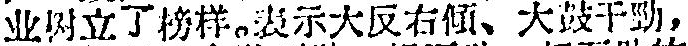业树立了榜样。表示大反右傾、大鼓干勁，
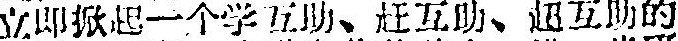立即掀起一个学互助、赶互助、超互助的
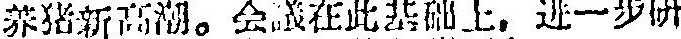养猪新高潮。会議在此基础上，进一步研
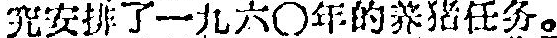究安排了一九六〇年的养猪任务。
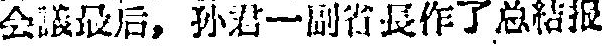会議最后，孙君一副省長作了总結报
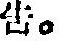告。
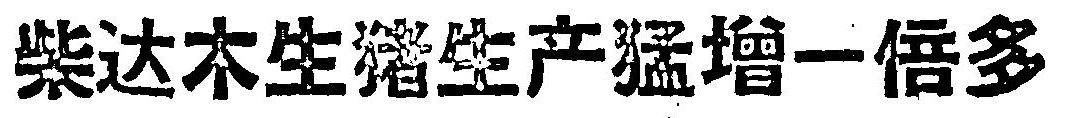柴达木生猪生产猛增一倍多
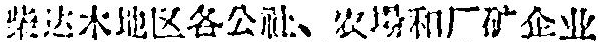柴达木地区各公社、农場和厂矿企业
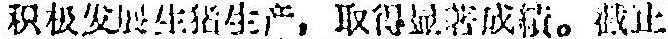积极发展生猪生产，取得显著成績。截止
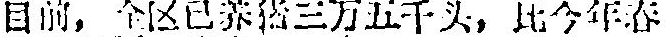目前，全区已养猪三万五千头，比今年春
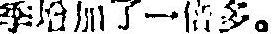季增加了一倍多。
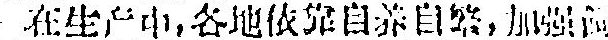在生产中，各地依靠自养自繁，加強飼
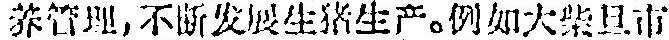养管理，不断发展生猪生产。例如大柴旦市
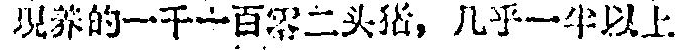現养的一千一百零二头猪，几乎一半以上
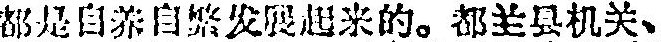都是自养自繁发展起来的。都兰县机关、
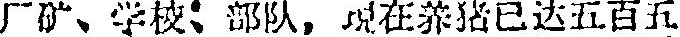厂矿、学校、部队，現在养猪已达五百五
